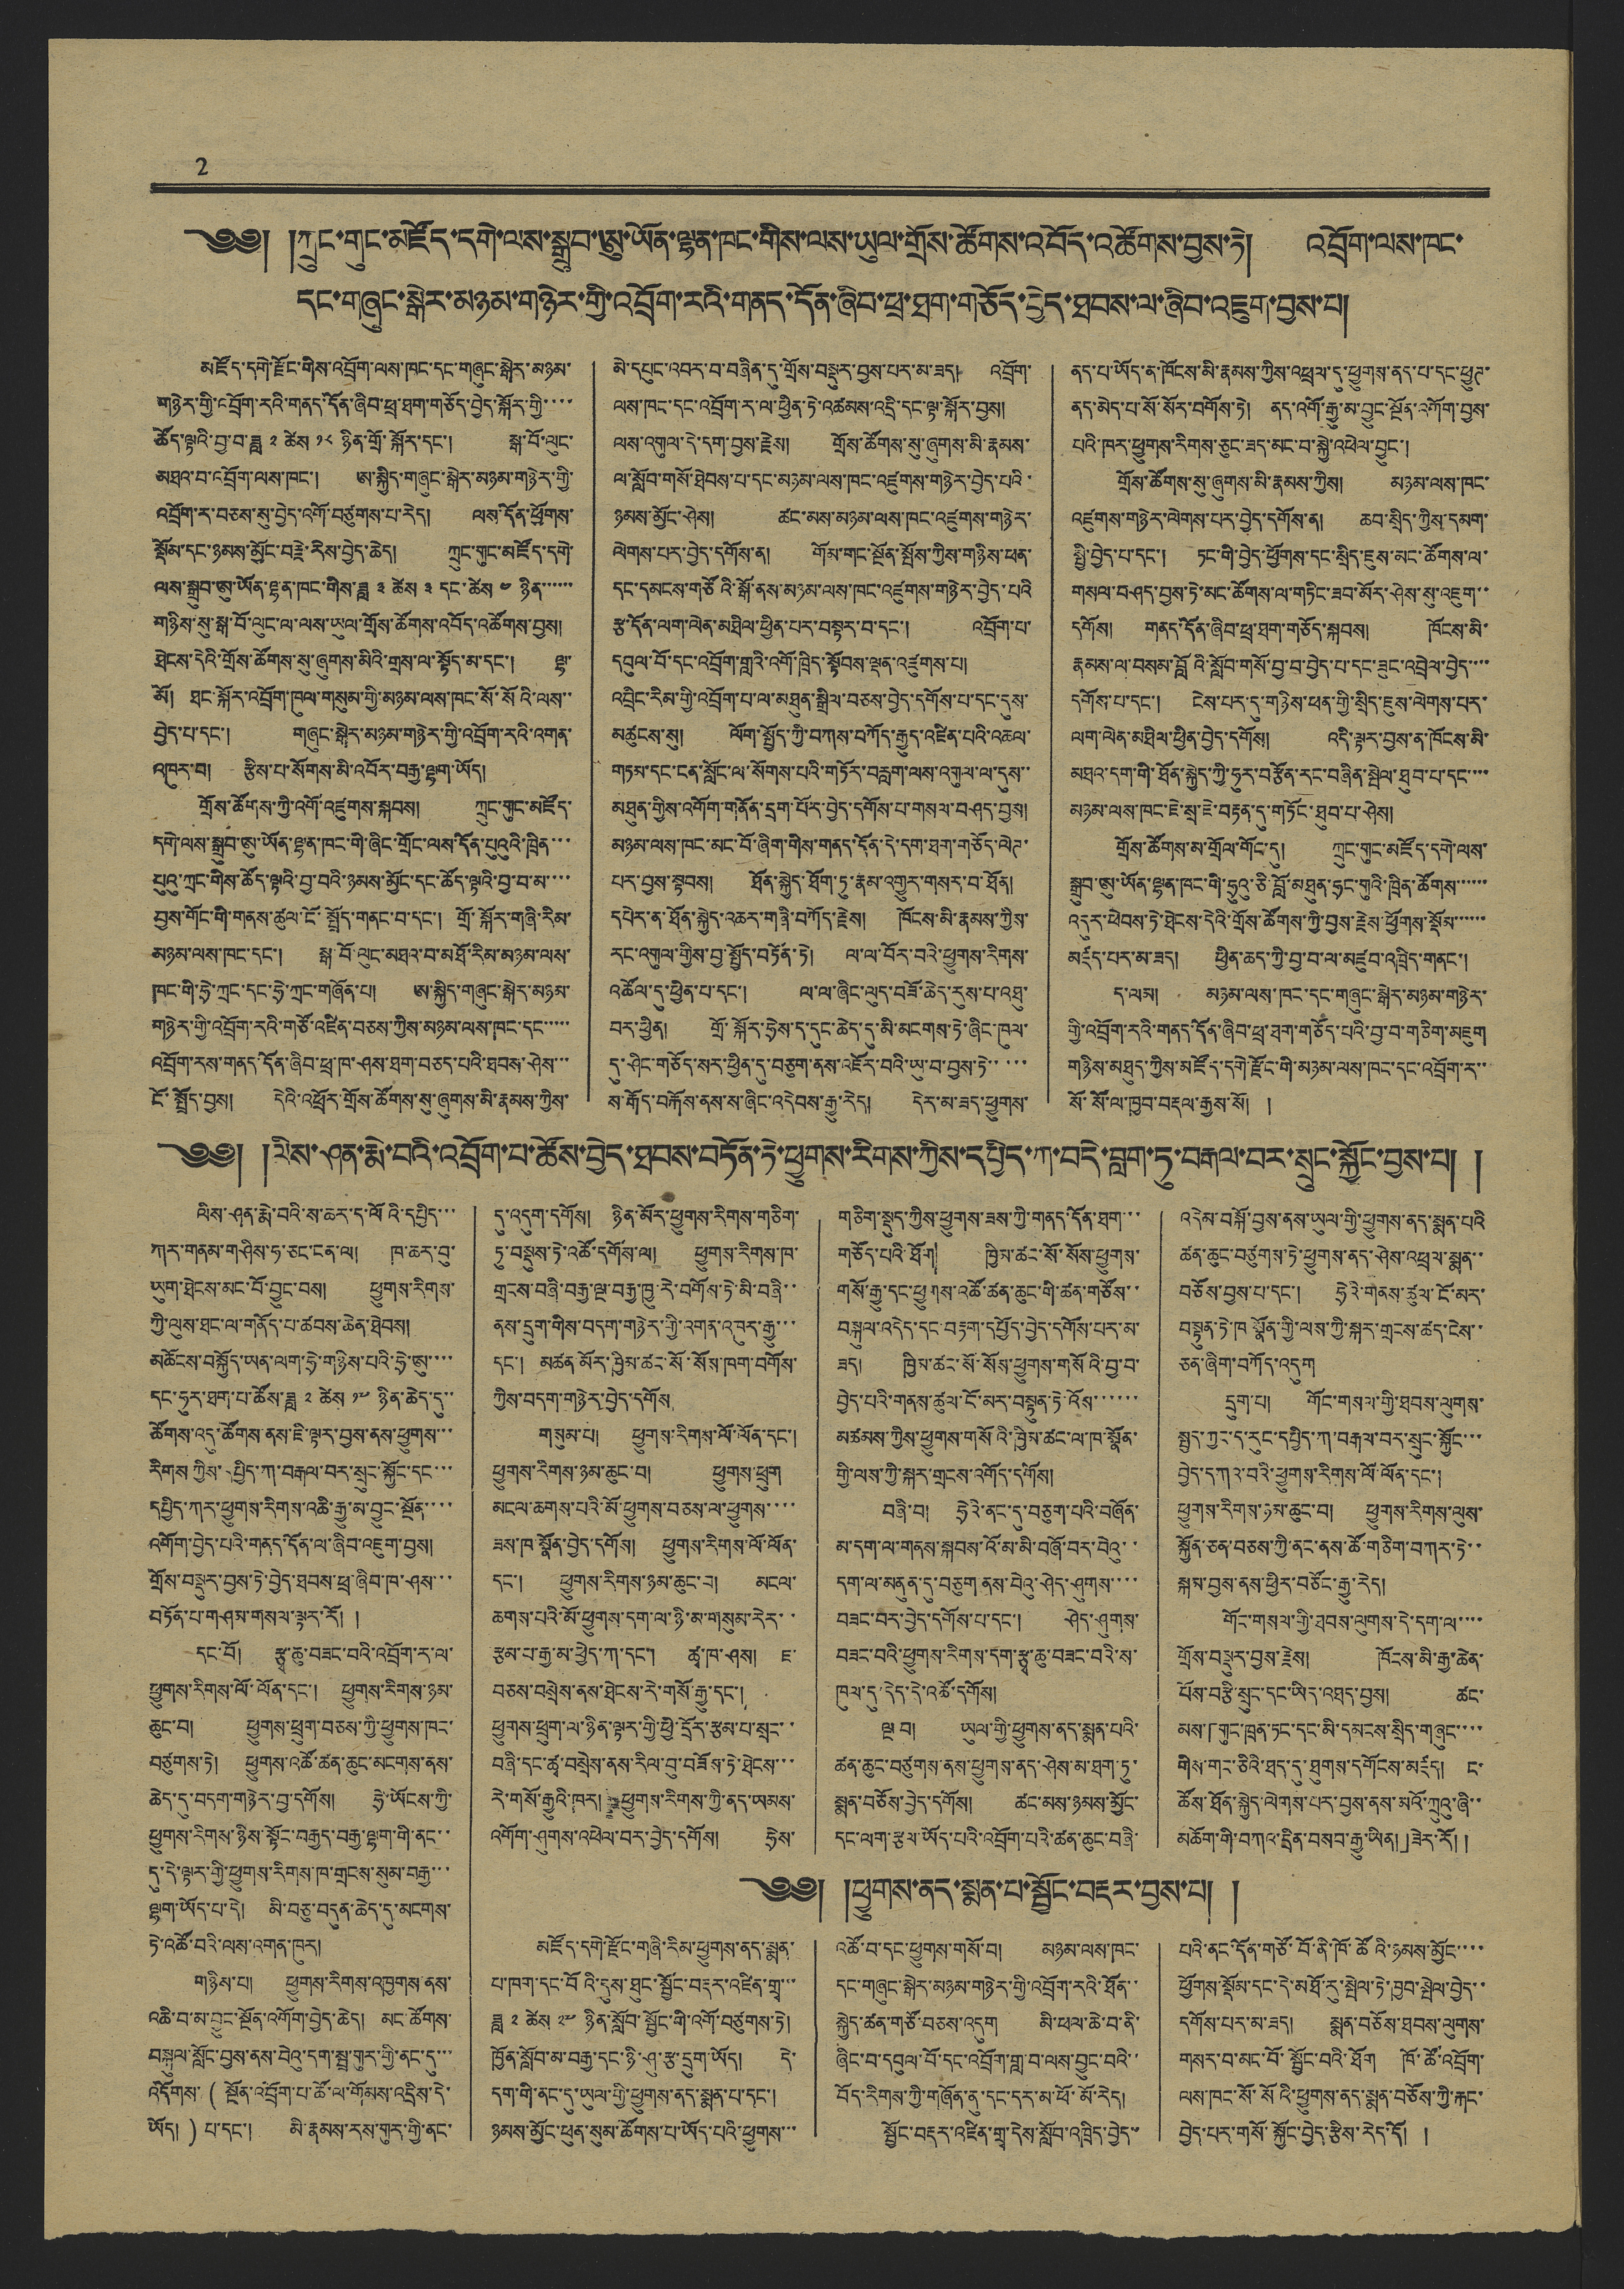2
༄༅། །ཀྲུང་གུང་མཛོད་དགེ་ལས་སྒྲུབ་ཨུ་ཡོན་ལྷན་ཁང་གིས་ལས་ཡུལ་གྲོས་ཚོགས་འབོད་འཚོགས་བྱས་ཏེ། འབྲོག་ལས་ཁང་
དང་གཞུང་སྒེར་མཉམ་གཉེར་གྱི་འབྲོག་རའི་གནད་དོན་ཞིབ་ཕྲ་ཐག་གཅོད་བྱེད་ཐབས་ལ་ཞིབ་འཇུག་བྱས་བ།
མཛོད་དགེ་རྫོང་གིས་འབྲོག་ལས་ཁང་དང་གཞུང་སྒེར་མཉམ་
གཉེར་གྱི་འབྲོག་རའི་གནད་དོན་ཞིབ་ཕྲ་ཐག་གཅོད་བྱེད་སྐོར་གྱི་་་་
ཚོད་ལྟའི་བྱ་བ་ཟླ ༢ ཚེས ༡༨ ཉིན་གྲོ་སྐོར་དང་། སྒ་བོ་ལུང་
མཐའ་བ་འབྲོག་ལས་ཁང་། ཨ་སྐྱིད་གཞུང་སྒེར་མཉམ་གཉེར་གྱི་
འབྲོག་ར་བཅས་སུ་བྱེད་འགོ་བཙུགས་པ་རེད། ལས་དོན་ཕྱོགས་
སྡོམ་དང་ཉམས་མྱོང་བརྗེ་རེས་བྱེད་ཆེད། ཀྲུང་གུང་མཛོད་དགེ་
ལས་སྒྲུབ་ཨུ་ཡོན་ལྷན་ཁང་གིས་ཟླ ༣ ཚེས ༣ དང་ཚེས ༤ ཉིན་་་་་་
གཉིས་སུ་སྒ་བོ་ལུང་ལ་ལས་ཡུལ་གྲོས་ཚོགས་འབོད་འཚོགས་བྱས།
ཐེངས་དེའི་གྲོས་ཚོགས་སུ་ཞུགས་མིའི་གྲས་ལ་སྟོད་མ་དང་། ལྷ་
མོ། ཐང་སྐོར་འབྲོག་ཁུལ་གསུམ་གྱི་མཉམ་ལས་ཁང་སོ་སོའི་ལས་་
བྱེད་པ་དང་། གཞུང་སྒེར་མཉམ་གཉེར་གྱི་འབྲོག་རའི་འགན་
འཁུར་བ། རྩིས་པ་སོགས་མི་འབོར་བརྒྱ་ལྷག་ཡོད།
གྲོས་ཚོགས་ཀྱི་འགོ་འཛུགས་སྐབས། ཀྲུང་གུང་མཛོད་
དགེ་ལས་སྒྲུབ་ཨུ་ཡོན་ལྷན་ཁང་གི་ཞིང་གྲོང་ལས་དོན་པུའུའི་ཁྲིན་་་
པུའུ་ཀྲང་གིས་ཚོད་ལྟའི་བྱ་བའི་ཉམས་མྱོང་དང་ཚོད་ལྟའི་བྱ་བ་མ་་་་
བྱས་གོང་གི་གནས་ཚུལ་ངོ་སྤྲོད་གནང་བ་དང་། གྲོ་སྐོར་གཞི་རིམ་
མཉམ་ལས་ཁང་དང་། སྒ་བོ་ལུང་མཐའ་བ་མཐོ་རིམ་མཉམ་ལས་
ཁང་གི་ཧྲེ་ཀྲང་དང་ཧྲེ་ཀྲང་གཞོན་པ། ཨ་སྐྱིད་གཞུང་སྒེར་མཉམ་
གཉེར་གྱི་འབྲོག་རའི་གཙོ་འཛིན་བཅས་ཀྱིས་མཉམ་ལས་ཁང་དང་་་་་
འབྲོག་རས་གནད་དོན་ཞིབ་ཕྲ་ཁ་ཤས་ཐག་བཅད་པའི་ཐབས་ཤེས་་་
ངོ་སྤྲོད་བྱས། དེའི་འཕྲོར་གྲོས་ཚོགས་སུ་ཞུགས་མི་རྣམས་ཀྱིས་
མེ་དཔུང་འབར་བ་བཞིན་དུ་གྲོས་བསྡུར་བྱས་པར་མ་ཟད། འབྲོག་
ལས་ཁང་དང་འབྲོག་ར་ལ་ཕྱིན་ཏེ་འཚམས་འདྲི་དང་ལྟ་སྐོར་བྱས།
ལས་འགུལ་དེ་དག་བྱས་རྗེས། གྲོས་ཚོགས་སུ་ཞུགས་མི་རྣམས་
ལ་སློབ་གསོ་ཐེབས་པ་དང་མཉམ་ལས་ཁང་འཛུགས་གཉེར་བྱེད་པའི་
ཉམས་མྱོང་ཤེས། ཚང་མས་མཉམ་ལས་ཁང་འཛུགས་གཉེར་
ལེགས་པར་བྱེད་དགོས་ན། གོམ་གང་སྔོན་སྤོས་ཀྱིས་གཉིས་ཕན་
དང་དམངས་གཙོའི་སྒོ་ནས་མཉམ་ལས་ཁང་འཛུགས་གཉེར་བྱེད་པའི་
རྩ་དོན་ལག་ལེན་མཐིལ་ཕྱིན་པར་བསྟར་བ་དང་། འབྲོག་པ་
དབུལ་བོ་དང་འབྲོག་གླའི་འགོ་ཁྲིད་སྟོབས་ལྡན་འཛུགས་པ།
འབྲིང་རིམ་གྱི་འབྲོག་པ་ལ་མཐུན་སྒྲིལ་བཅས་བྱེད་དགོས་པ་དང་དུས་
མཚུངས་སུ། ལོག་སྤྱོད་ཀྱི་བཀས་བཀོད་རྒྱུད་འཛིན་པའི་འཆལ་
གཏམ་དང་ངན་སློང་ལ་སོགས་པའི་གཏོར་བརླག་ལས་འགུལ་ལ་དུས་་
མཐུན་གྱིས་འགོག་གནོན་དྲག་པོར་བྱེད་དགོས་པ་གསལ་བཤད་བྱས།
མཉམ་ལས་ཁང་མང་བོ་ཞིག་གིས་གནད་དོན་དེ་དག་ཐག་གཅོད་ལེཊ་
པར་བྱས་སྟབས། ཐོན་སྐྱེད་ཐོག་ཏུ་རྣམ་འགྱུར་གསར་བ་ཐོན།
དཔེར་ན་ཐོན་སྐྱེད་འཆར་གཞི་བཀོད་རྗེས། ཁོངས་མི་རྣམས་ཀྱིས་
རང་འགུལ་གྱིས་བྱ་སྤྱོད་བཏོན་ཏེ། ལ་ལ་བོར་བའི་ཕྱུགས་རིགས་
འཚོལ་དུ་ཕྱིན་པ་དང་། ལ་ལ་ཞིང་ལུད་བཟོ་ཆེད་རུས་པ་འཐུ་
བར་ཕྱིན། གྲོ་སྐོར་ཧྲེས་ད་དུང་ཆེད་དུ་མི་མངགས་ཏེ་ཞིང་ཁུལ་
དུ་ཤིང་གཅོད་སར་ཕྱིན་དུ་བཅུག་ནས་འཇོར་བའི་ཡུ་བ་བྱས་ཏེ་་་་་
ས་རྒོད་བརྐོས་ནས་ས་ཞིང་འདེབས་རྒྱུ་རེད། དེར་མ་ཟད་ཕྱུགས་
ནད་པ་ཡོད་ན་ཁོངས་མི་རྣམས་ཀྱིས་འཕྲལ་དུ་ཕྱུགས་ནད་པ་དང་ཕྱུཊ་
ནད་མེད་པ་སོ་སོར་བགོས་ཏེ། ནད་འགོ་རྒྱུ་མ་བྱུང་སྔོན་འགོག་བྱས་
པའི་ཁར་ཕྱུགས་རིགས་ཅུང་ཟད་མང་བ་སྐྱེ་འཕེལ་བྱུང་།
གྲོ་ཚོགས་སུ་ཞུགས་མི་རྣམས་ཀྱིས། མཉམ་ལས་ཁང་
འཛུགས་གཉེར་ལེགས་པར་བྱེད་དགོས་ན། ཆབ་སྲིད་ཀྱིས་དམག་
སྤྱི་བྱེད་པ་དང་། ཏང་གི་བྱེད་ཕྱོགས་དང་སྲིད་ཇུས་མང་ཚོགས་ལ་
གསལ་བཤད་བྱས་ཏེ་མང་ཚོགས་ལ་གཏིང་ཟབ་མོར་ཤེས་སུ་འཇུག་་
དགོས། གནད་དོན་ཞིབ་ཕྲ་ཐག་གཅོད་སྐབས། ཁོངས་མི་
རྣམས་ལ་བསམ་བློའི་སློབ་གསོ་བྱ་བ་བྱེད་པ་དང་ཟུང་འབྲེལ་བྱེད་་་་
དགོས་པ་དང་། ངེས་པར་དུ་གཉིས་ཕན་གྱི་སྲིད་ཇུས་ལེགས་པར་
ལག་ལེན་མཐིལ་ཕྱིན་བྱེད་དགོས། འདི་ལྟར་བྱས་ན་ཁོངས་མི་
མཐའ་དག་གི་ཐོན་སྐྱེད་ཀྱི་ཧུར་བརྩོན་རང་བཞིན་སྤེལ་ཐུབ་པ་དང་་་་
མཉམ་ལས་ཁང་ཇེ་སྲ་ཇེ་བརྟན་དུ་གཏོང་ཐུབ་པ་ཤེས།
གྲོས་ཚོགས་མ་གྲོལ་གོང་དུ། ཀྲུང་གུང་མཛོད་དགེ་ལས་
སྒྲུབ་ཨུ་ཡོན་ལྷན་ཁང་གི་ཧྲུའུ་ཅི་བློ་མཐུན་ཧྲང་གུའི་ཁྲིན་ཚོགས་་་་་་
འདུར་ཕེབས་ཏེ་ཐེངས་དེའི་གྲོས་ཚོགས་ཀྱི་བྱས་རྗེས་ཕྱོགས་སྡོམ་་་་་་
མཛད་པར་མ་ཟད། ཕྱིན་ཆད་ཀྱི་བྱ་བ་ལ་མཛུབ་འཁྲིད་གནང་།
ད་ལམ། མཉམ་ལས་ཁང་དང་གཞུང་སྒེར་མཉམ་གཉེར་
གྱི་འབྲོག་རའི་གནད་དོན་ཞིབ་ཕྲ་ཐག་གཅོད་པའི་བྱ་བ་གཅིག་མཇུག
གཉིས་མཐུད་ཀྱིས་མཛོད་དགེ་རྫོང་གི་མཉམ་ལས་ཁང་དང་འབྲོག་ར་་
སོ་སོ་ལ་ཁྱབ་བརྡལ་རྒྱས་སོ། །
༄༅། །ལིས་ཤན་རྨེ་བའི་འབྲོག་པ་ཚོས་བྱེད་ཐབས་བཏོན་ཏེ་ཕྱུགས་རིགས་ཀྱིས་དཔྱིད་ཀ་བདེ་བླག་ཏུ་བརྒལ་བར་སྲུང་སྐྱོང་བྱས་པ། །
ལིས་ཤན་རྨེ་བའི་ས་ཆར་ད་ལོའི་དཔྱིད་་་
ཀར་གནམ་གཤིས་ཧ་ཅང་ངན་ལ། ཁ་ཆར་བུ་
ཡུག་ཐེངས་མང་བོ་བྱུང་བས། ཕྱུགས་རིགས་
ཀྱི་ལུས་ཐང་ལ་གནོད་པ་ཚབས་ཆེན་ཐེབས།
མཆོངས་བསྐྱོད་ཡན་ལག་ཧྲེ་གཉིས་པའི་ཧྲེ་ཨུ་་་་
དང་ཧུར་ཐག་པ་ཚོས་ཟླ ༢ ཚེས ༡༧ ཉིན་ཆེད་དུ་་
ཚོགས་འདུ་ཚོགས་ནས་ཇི་ལྟར་བྱས་ནས་ཕྱུགས་་་
རིགས་ཀྱིས་དཔྱིད་ཀ་བརྒལ་བར་སྲུང་སྐྱོང་དང་་་
དཔྱིད་ཀར་ཕྱུགས་རིགས་འཆི་རྒྱུ་མ་བྱུང་སྔོན་་་་
འགོག་བྱེད་པའི་གནད་དོན་ལ་ཞིབ་འཇུག་བྱས།
གྲོས་བསྡུར་བྱས་ཏེ་བྱེད་ཐབས་ཕྲ་ཞིབ་ཁ་ཤས་་་
བཏོན་པ་གཤམ་གསལ་ལྟར་རོ། །
དང་བོ། རྩྭ་ཆུ་བཟང་བའི་འབྲོག་ར་ལ་
ཕྱུགས་རིགས་ལོ་ལོན་དང་། ཕྱུགས་རིགས་ཉམ་
ཆུང་བ། ཕྱུགས་ཕྲུག་བཅས་ཀྱི་ཕྱུགས་ཁང་
བཙུགས་ཏེ། ཕྱུགས་འཚོ་ཚན་ཆུང་མངགས་ནས་
ཆེད་དུ་བདག་གཉེར་བྱ་དགོས། ཧྲེ་ཡོངས་ཀྱི་
ཕྱུགས་རིགས་ཉིས་སྟོང་བརྒྱད་བརྒྱ་ལྷག་གི་ནང་་
དུ་དེ་ལྟར་གྱི་ཕྱུགས་རིགས་ཁ་གྲངས་སུམ་བརྒྱ་་་
ལྷག་ཡོད་པ་དེ། མི་བཅུ་བདུན་ཆེད་དུ་མངགས་
ཏེ་འཚོ་བའི་ལས་འགན་ཁུར།
གཉིས་པ། ཕྱུགས་རིགས་འཁྱགས་ནས་
འཆི་བ་མ་བྱུང་སྔོན་འགོག་བྱེད་ཆེད། མང་ཚོགས་
བསྐུལ་སློང་བྱས་ནས་བེའུ་དག་སྦྲ་གུར་གྱི་ནང་དུ་་་
འདོགས་ (སྔོན་འབྲོག་པ་ཚོ་ལ་གོམས་འདྲིས་དེ་
ཡོད།) པ་དང་། མི་རྣམས་རས་གུར་གྱི་ནང་
དུ་འདུག་དགོས། ཉིན་མོར་ཕྱུགས་རིགས་གཅིག་
ཏུ་བསྡུས་ཏེ་འཚོ་དགོས་ལ། ཕྱུགས་རིགས་ཁ་
གྲངས་བཞི་བརྒྱ་ལྔ་བརྒྱ་ཁྱུ་རེ་བགོས་ཏེ་མི་བཞི་་
ནས་དྲུག་གིས་བདག་གཉེར་གྱི་འགན་འཁུར་རྒྱུ་་་
དང་། མཚན་མོར་ཁྱིམ་ཚང་སོ་སོས་ཁག་བགོས་
ཀྱིས་བདག་གཉེར་བྱེད་དགོས།
གསུམ་པ། ཕྱུགས་རིགས་ལོ་ལོན་དང་།
ཕྱུགས་རིགས་ཉམ་ཆུང་བ། ཕྱུགས་ཕྲུག
མངལ་ཆགས་པའི་མོ་ཕྱུགས་བཅས་ལ་ཕྱུགས་་་་
ཟས་ཁ་སྣོན་བྱེད་དགོས། ཕྱུགས་རིགས་ལོ་ལོན་
དང་། ཕྱུགས་རིགས་ཉམ་ཆུང་བ། མངལ་
ཆགས་པའི་མོ་ཕྱུགས་དག་ལ་ཉི་མ་གསུམ་རེར་་
རྩམ་པ་རྒྱ་མ་ཕྱེད་ཀ་དང་། ཚྭ་ཁ་ཤས། ཇ་
བཅས་བསྲེས་ནས་ཐེངས་རེ་གསོ་རྒྱུ་དང་།
ཕྱུགས་ཕྲུག་ལ་ཉིན་ལྟར་གྱི་ཕྱི་དྲོར་རྩམ་པ་སྲང་་
བཞི་དང་ཚྭ་བསྲེས་ནས་རིལ་བུ་བཟོས་ཏེ་ཐེངས་་་
རེ་གསོ་རྒྱུའི་ཁར། ཕྱུགས་རིགས་ཀྱི་ནད་ཡམས་
འགོག་ཤུགས་འཕེལ་བར་བྱེད་དགོས། ཧྲེས་
གཅིག་སྡུད་ཀྱིས་ཕྱུགས་ཟས་ཀྱི་གནད་དོན་ཐག་་་
གཅོད་པའི་ཐོག ཁྱིམ་ཚང་སོ་སོས་ཕྱུགས་
གསོ་རྒྱུ་དང་ཕྱུགས་འཚོ་ཚན་ཆུང་གི་ཚན་གཙོས་་
བསྐུལ་འདེད་དང་བརྟག་དཔྱོད་བྱེད་དགོས་པར་མ་
ཟད། ཁྱིམ་ཚང་སོ་སོས་ཕྱུགས་གསོའི་བྱ་བ་
བྱེད་པའི་གནས་ཚུལ་ངོ་མར་བསྟུན་ཏེ་འོས་་་་་་
མཚམས་ཀྱིས་ཕྱུགས་གསོའི་ཁྱིམ་ཚང་ལ་ཁ་སྣོན་
གྱི་ལས་ཀྱི་སྐར་གྲངས་འགོད་དགོས།
བཞི་བ། ཧྲེའི་ནང་དུ་བཅུག་པའི་བཞོན་
མ་དག་ལ་གནས་སྐབས་འོ་མ་མི་བཞོ་བར་བེའུ་་
དག་ལ་མནུན་དུ་བཅུག ནས་བེའུ་ཤེད་ཤུགས་་་་
བཟང་བར་བྱེད་དགོས་པ་དང་། ཤེད་ཤུགས་
བཟང་བའི་ཕྱུགས་རིགས་དག་རྩྭ་ཆུ་བཟང་བའི་ས་
ཁུལ་དུ་དེད་དེ་འཚོ་དགོས།
ལྔ་བ། ཡུལ་གྱི་ཕྱུགས་ནད་སྨན་པའི་
ཚན་ཆུང་བཙུགས་ནས་ཕྱུགས་ནད་ཤེས་མ་ཐག་ཏུ་
སྨན་བཅོས་བྱེད་དགོས། ཚང་མས་ཉམས་མྱོང་
དང་ལག་རྩལ་ཡོད་པའི་འབྲོག་པའི་ཚན་ཆུང་བཞི་
འདེམ་བསྐོ་བྱས་ནས་ཡུལ་གྱི་ཕྱུགས་ནད་སྨན་པའི
ཚན་ཆུང་བཙུགས་ཏེ་ཕྱུགས་ནད་ཤེས་འཕྲལ་སྨན་་
བཅོས་བྱས་པ་དང་། ཧྲེའི་གནས་ཚུལ་ངོ་མར་
བསྟུན་ཏེ་ཁ སྣོན་གྱི་ལས་ཀྱི་སྐར་གྲངས་ཚད་ངེས་་
ཅན་ཞིག་བཀོད་འདུག
དྲུག་པ། གོང་གསལ་གྱི་ཐབས་ལུགས་
སྤྱད་ཀྱང་ད་རུང་དཔྱིད་ཀ་བརྒལ་བར་སྲུང་སྐྱོང་་་
བྱེད་དཀའ་བའི་ཕྱུགས་རིགས་ལོ་ལོན་དང་།
ཕྱུགས་རིགས་ཉམ་ཆུང་བ། ཕྱུགས་རིགས་ལུས་
སྐྱོན་ཅན་བཅས་ཀྱི་ནང་ནས་ཚོ་གཅིག་བཀར་ཏེ་་
སྐམ་བྱས་ནས་ཕྱིར་བཙོང་རྒྱུ་རེད།
གོང་གསལ་གྱི་ཐབས་ལུགས་དེ་དག་ལ་་་་
གྲོས་བསྡུར་བྱས་རྗེས། ཁོངས་མི་རྒྱ་ཆེན་
པོས་བརྩི་སྲུང་དང་ཡིད་འཐད་བྱས། ཚང་
མས་「གུང་ཁྲན་ཏང་དང་མི་དམངས་སྲིད་གཞུང་་་་
གིས་གང་ཅིའི་ཐད་དུ་ཐུགས་དགོངས་མཛད། ང་
ཚོས་ཐོན་སྐྱེད་ལེགས་པར་བྱས་ནས་མའོ་ཀྲུའུ་ཞི་་
མཆོག་གི་བཀའ་དྲིན་བསབ་རྒྱུ་ཡིན།」ཟེར་རོ། །
༄༅། །ཕྱུགས་ནད་སྨན་པ་སྦྱོང་བརྡར་བྱས་པ། །
མཛོད་དགེ་རྫོང་གཞི་རིམ་ཕྱུགས་ནད་སྨན་
པ་ཁག་དང་བོའི་དུས་ཐུང་སྦྱོང་བརྡར་འཛིན་གྲྭ་་་
ཟླ ༢ ཚེས ༡༧ ཉིན་སློབ་སྦྱོང་གི་འགོ་བཙུགས་ཏེ།
ཁྱོན་སློབ་མ་བརྒྱ་དང་ཉི་ཤུ་རྩ་དྲུག་ཡོད། དེ་
དག་གི་ནང་དུ་ཡུལ་གྱི་ཕྱུགས་ནད་སྨན་པ་དང་།
ཉམས་མྱོང་ཕུན་སུམ་ཚོགས་པ་ཡོད་པའི་ཕྱུགས་་་
འཚོ་བ་དང་ཕྱུགས་གསོ་བ། མཉམ་ལས་ཁང་
དང་གཞུང་སྒེར་མཉམ་གཉེར་གྱི་འབྲོག་རའི་ཐོན་་
སྐྱེད་ཚན་གཙོ་བཅས་འདུག མི་ཕལ་ཆེ་བ་ནི་
ཞིང་བ་དབུལ་བོ་དང་འབྲོག་གླ་བ་ལས་བྱུང་བའི་་
བོད་རིགས་ཀྱི་གཞོན་ནུ་དང་དར་མ་ཕོ་མོ་རེད།
སྦྱོང་བརྡར་འཛིན་གྲྭ་དེས་སློབ་འཁྲིད་བྱེད་་
པའི་ནང་དོན་གཙོ་བོ་ནི་ཁོ་ཚོའི་ཉམས་མྱོང་་་་
ཕྱོགས་སྡོམ་དང་དེ་མཐོ་རུ་སྤེལ་ཏེ་ཁྱབ་སྦེལ་བྱེད་་
དགོས་པར་མ་ཟད། སྨན་བཅོས་ཐབས་ལུགས་
གསར་བ་མང་བོ་སྦྱོང་བའི་ཐོག ཁོ་ཚོ་འབྲོག་
ལས་ཁང་སོ་སོའི་ཕྱུགས་ནད་སྨན་བཅོས་ཀྱི་རྐང་
བྱེད་པར་གསོ་སྐྱོང་བྱེད་རྩིས་རེད་དོ། །
